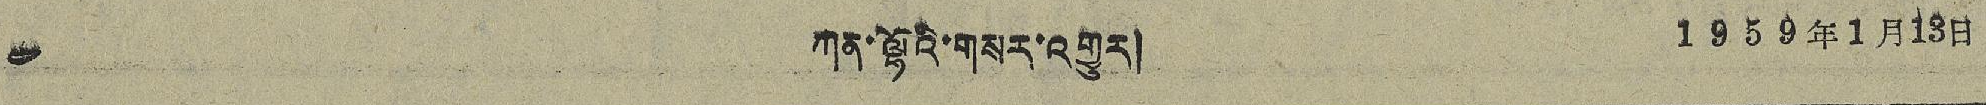༤ ཀན་ལྷོའི་གསར་འགྱུར། 1959年1月13日
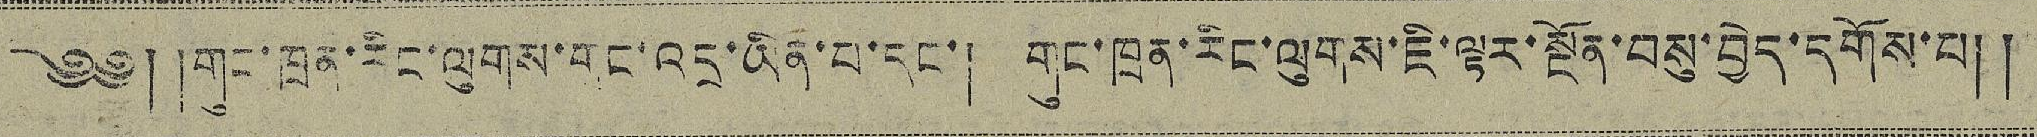༄༅། །གུང་ཁྲན་རིང་ལུགས་གང་འདྲ་ཡིན་པ་དང་། གུང་ཁྲན་རིང་ལུགས་ཇི་ལྟར་སྔོན་བསུ་བྱེད་དགོས་པ། །
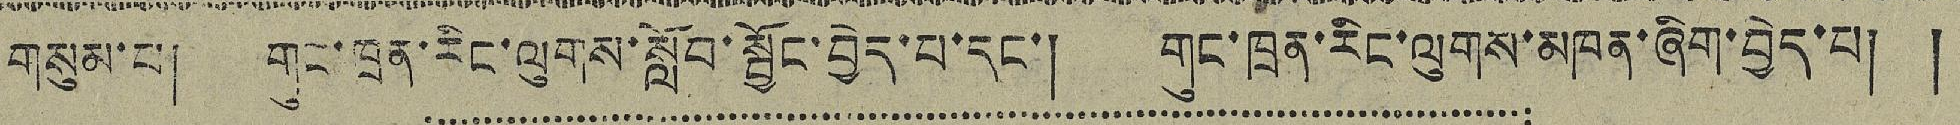གསུམ་པ། གུང་ཁྲན་རིང་ལུགས་སློབ་སྦྱོང་བྱེད་པ་དང་། གུང་ཁྲན་རིང་ལུགས་མཁན་ཞིག་བྱེད་པ། །
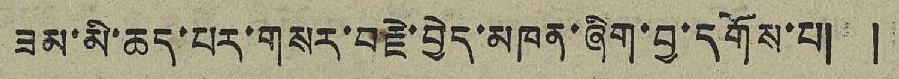ཟམ་མི་ཆད་པར་གསར་བརྗེ་བྱེད་མཁན་ཞིག་བྱ་དགོས་པ། །
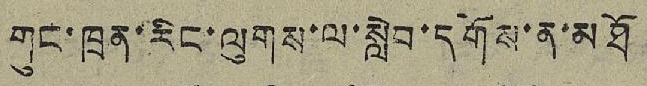གུང་ཁྲན་རིང་ལུགས་ལ་སླེབ་དགོས་ན་མཐོ
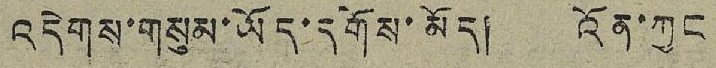འདེགས་གསུམ་ཡོད་དགོས་མོད། འོན་ཀྱང
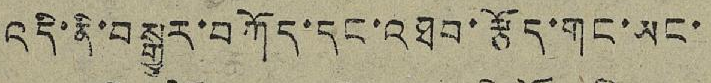འདི་ནི་བསྐྱུར་བཀོད་དང་འཐབ་རྩོད་གང་ཡང་
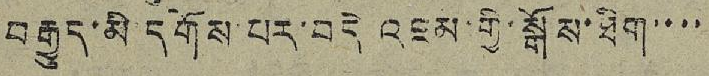བརྒྱུད་མི་དགོས པར་བདེ འཇམ་གྱི་སྒོས་ཐིག་་་་
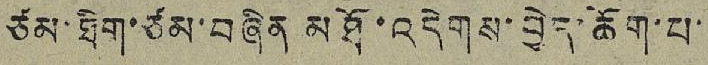ཙམ་ཐིག་ཙམ་བཞིན་མཐོ་འདེགས་བྱེད་ཆོག་པ་
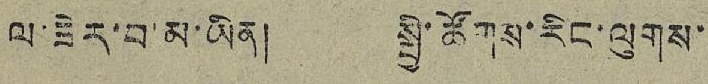ལ་ཟེར་བ་མ་ཡིན། སྤྱི་ཚོགས་རིང་ལུགས་
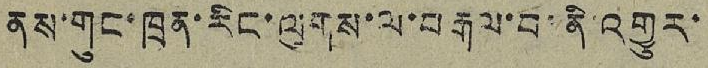ནས་གུང་ཁྲན་རིང་ལུགས་ལ་བརྒལ་བ་ནི་འགྱུར་
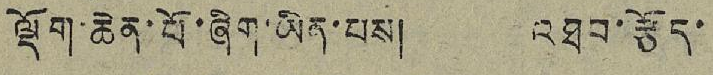ལྡོག་ཆེན་པོ་ཞིག་ཡིན་པས། འཐབ་རྩོད་
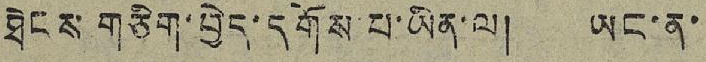ཐེངས་གཅིག་བྱེད་དགོས་པ་ཡིན་ལ། ཡང་ན་
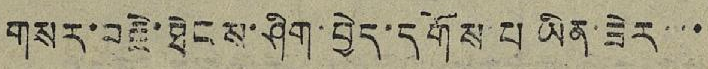གསར་བརྗེ་ཐེངས་ཤིག་བྱེད་དགོས་པ ཡིན་ཟེར་་་
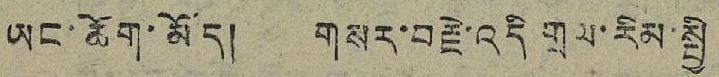ཡང་ཆོག་མོད། གསར་བརྗེ་འདི་གྲལ་རིམ་སྤྱི
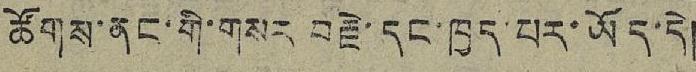ཚོགས་ནང་གི་གསར་བརྗེ་དང་ཁྱད་པར་ཡོད་དེ།
